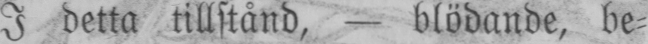I detta tillstånd, — blödande, be-
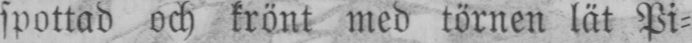spottad och krönt med törnen lät Pi-
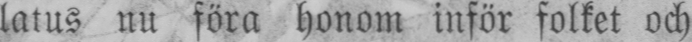latus nu föra honom inför folket och
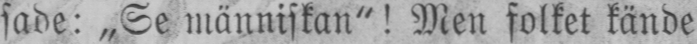sade: „Se människan"! Men folket kände
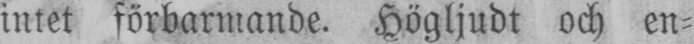intet förbarmande. Högljudt och en-
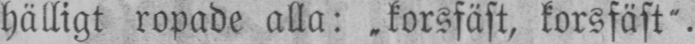hälligt ropade alla: "korsfäst, korsfäst'.
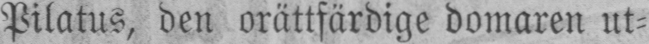Pilatus, den orättfärdige domaren ut-
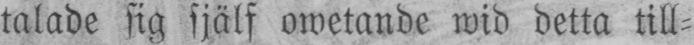talade sig själf owetande wid detta till-
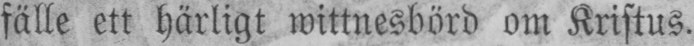fälle ett härligt wittnesbörd om Kristus.
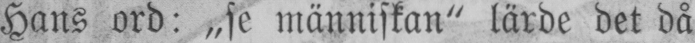Hans ord: „se människan" lärde det då
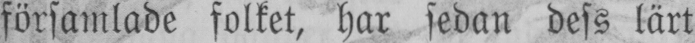församlade folket, har sedan dess lärt
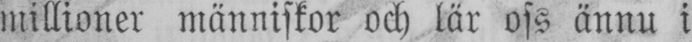millioner människor och lär oss ännu i
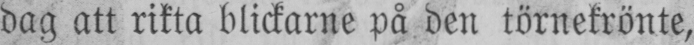dag att rikta blickarne på den törnekrönte,
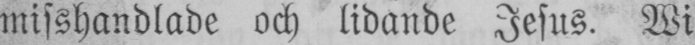misshandlade och lidande Jesus. Wi
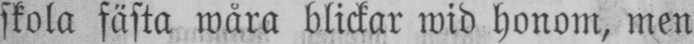skola fästa wåra blickar wid honom, men
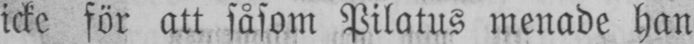icke för att såsom Pilatus menade han
